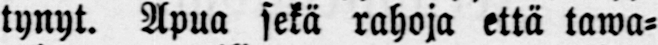tynyt. Apua sekä rahoja että tawa-
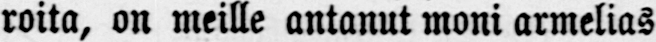roita, on meille antanut moni armelias
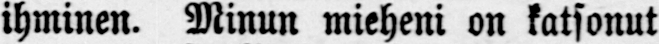ihminen. Minun mieheni on katsonut
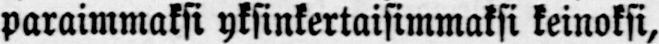paraimmaksi yksinkertaisimmaksi keinoksi,
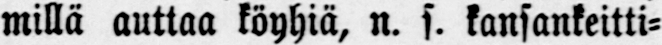millä auttaa köyhiä, n. s. kansankeitti-
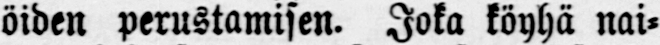öiden perustamisen. Joka köyhä nai-
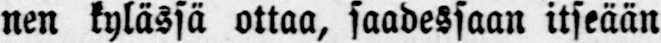nen kylässä ottaa, saadessaan itseään
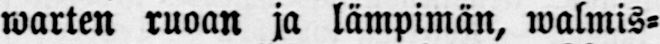warten ruoan ja lämpimän, walmis-
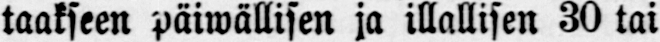taakseen päiwällisen ja illallisen 30 tai
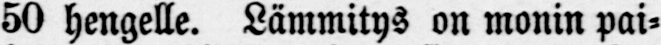50 hengelle. Lämmitys on monin pai-
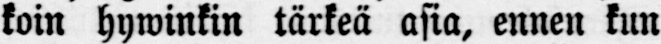koin hywinkin tärkeä asia, ennen kun
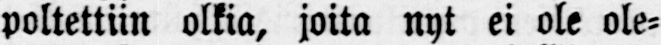poltettiin olkia, joita nyt ei ole ole-
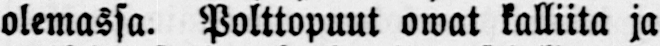olemassa. Polttopuut owat kalliita ja
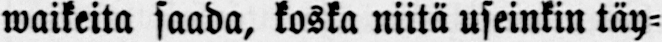waikeita saada, koska niitä useinkin täy-
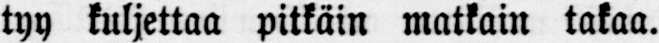tyy kuljettaa pitkäin matkain takaa.
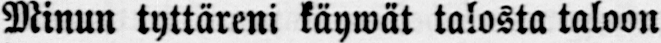Minun tyttäreni käywät talosta taloon
